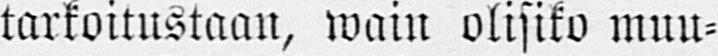tarkoitustaan, wain olisiko muu-
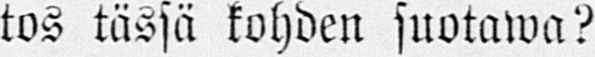tos tässä kohden suotawa?
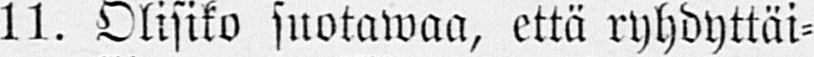11. Olisiko suotawaa, että ryhdyttäi-
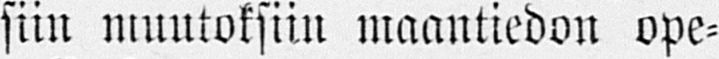siin muutoksiin maantiedon ope-
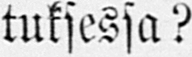tuksessa?
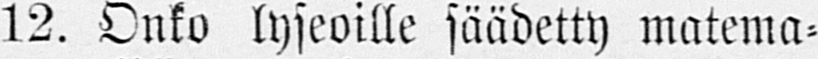12. Onko lyseoille säädetty matema-
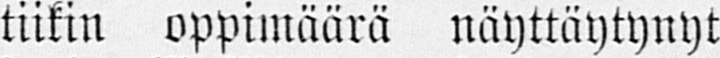tiikin oppimäärä näyttäytynyt
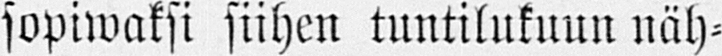sopiwaksi siihen tuntilukuun näh-
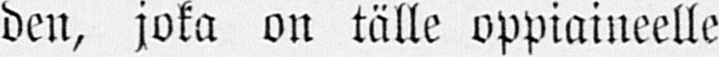den, joka on tälle oppiaineelle
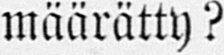määrätty?
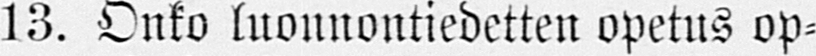13. Onko luonnontiedetten opetus op-
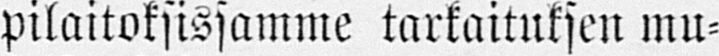pilaitoksissamme tarkaituksen mu-
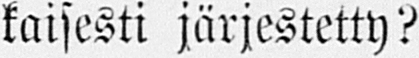kaisesti järjestetty?
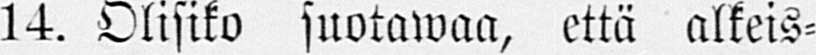14. Olisiko suotawaa, että alkeis-
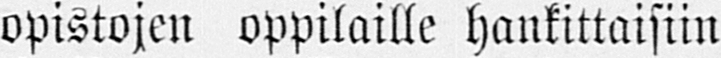opistojen oppilaille hankittaisiin
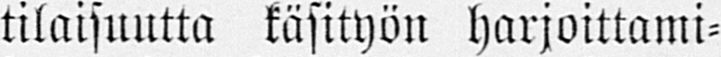tilaisuutta käsityön harjoittami-
